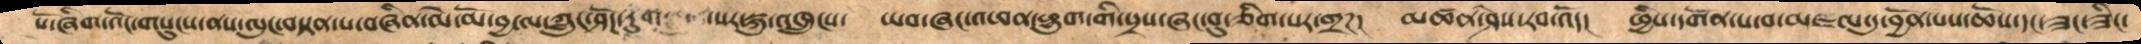པོ་ཞིག་འོང་གསུངས་ནས་་ལུང་བསྟན་པ་བཞིན་མེ་མོ་བྱ་ལ་ཀླུངས་ཤོད་རུག་ པར་སྐུ་འཁྲུངས། ཡབ་ཞང་འཕན་ཕྱུག་གི་སྲས་ཞང་བུ་ཅིག་པར་གྲཌ། མཚན་ཤེས་རབ་འོད། ཕྱིས་དགོན་པ་བ་མཇལ་དུ་བྱོན་པས་ཆོས་ད། ཟང་ཟིང་
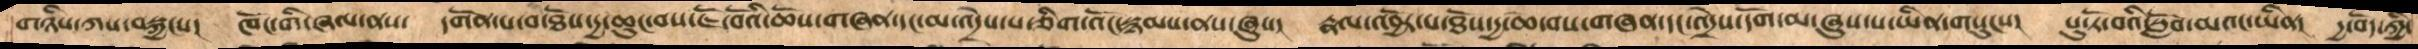གཉིས་ཀས་བསྐྱངས། ཁོང་གི་ཞལ་ནས། དགོན་པ་བ་ཐོས་དྱ་ཆུང་བས་ཇོ་བོའི་ཆོས་གཞན་དང་མ་འདྲེས་པ་ཅིག་འོང་སྙམས་ནས་ཞུས།  རྣལ་འབྱོར་པ་ཐོས་དྱ་ཆེ་བས་གཞན་དང་འདྲེས་དོག་མ་ཞུས་པ་ཡིན་གསུངས།  པུ་ཏོ་བའི་སློབ་མའང་ཡིན། དྱ་བོད་ཀྱི་
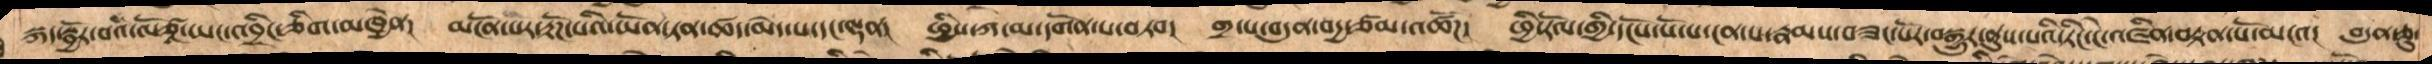སྐད་སྦྱོར་བའི་ལོཙཱ་ཡང་འབྲིང་ཅིག་མཁྱེན།  མངོན་པར་རྟོཌ་པའི་ཡོན་ཏན་ཚད་མེད་པ་དང་ལྡན།  ཕྱིས་ཀ་མ་དགོན་པ་བཏབ། གྲ་པ་བདུན་བདྱ་ཙམ་འཚོཌ།  ཕྱི་རོལ་གྱི་དངོས་པོ་པ་ངན་པ་རྣམས་བཟང་པོར་བསྒྱུར་ནུས་པའི་ཏིང་ངེ་འཛིན་བརྟན་པོ་མངའ།  བདུན་ཅུ་
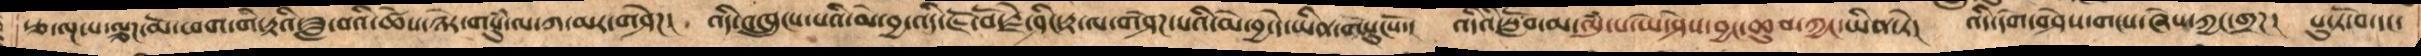རྩ་ལྔ་པ་ལྕཌ་མོ་ཕག་གི་རྟའི་ཟླ་བའི་ཚེས་ཉེར་གསུཾ་ལ་ཀ་མར་གཤེཌ།  འདི་འཁྲུངས་པའི་མེ་བྱ་འདི་ཇོ་བོ་རྗེ་ཤིང་རྟ་ལ་གཤེཌ་པའི་མེ་བྱ་དེ་ཡིན་གསུངསོ་།   འདིའི་སློབ་མ་ལུཾ་པ་ཡེ་ཤེས་བྱང་ཆུབ་ཀྱང་ཡིན་ཏེ།   འདི་དགེ་བཤེས་གངས་ཞེས་ཀྱང་གྲཌ།   པུ་ཏོ་བ་དང་
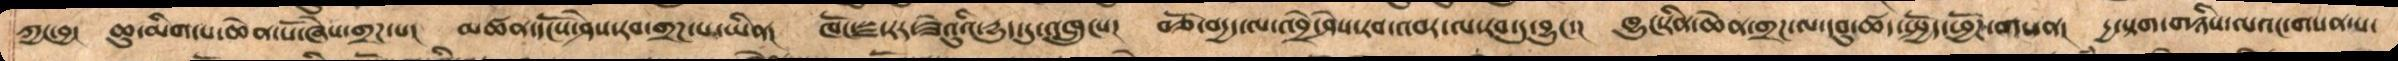ཀྱང་བྱ།   ཆུ་མིག་པ་ཆེན་པོ་ཞེས་གྲཌ་པ།   མཚན་དངོས་ཤེས་རབ་གྲཌ་པ་ཡིན།   ཁོང་སྫ་རར་ཟེའུའི་དྱུད་དུ་འཁྲུངས།   བཅོ་བདྱད་ལ་འབྲེ་ཤེས་རབ་འབར་ལ་རབ་དུ་བྱུང་།   ཁྱུང་རིན་ཆེན་གྲཌ་ལ་དབུ་ཚད་དང་སྤྱོད་ཕྱོཌ་གསན།    དྱ་སྟག་གཉིས་ལའང་གསན་པ།
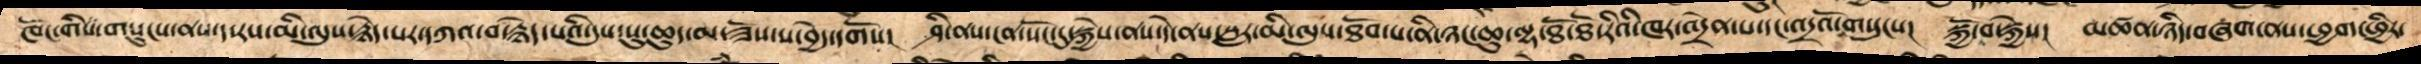ཁོང་གིས་གསུངས་ནས་ད་རས་མི་ལུས་རྙེད་པར་དཀའ་བ་རྙེད་པའི་དུས་སུ་ཆུད་མ་ཟོས་པ་བྱེད་དགོས།   ཤི་ནས་ངན་སོང་དུ་སྐྱེས་ནས་དེ་ནས་སླར་མི་ལུས་ཐོབ་པ་ནི་ཉང་ཆུ་ལྷ་ཐོ་ཐོ་རིའི་ཁར་འདྲེན་པ་དང་འདྲའོ་གསུངས།  སྐྱོ་བ་སྐྱེས།  མཚན་ཉིད་བཞག་ནས་ཕྱག་ཕྱིར་
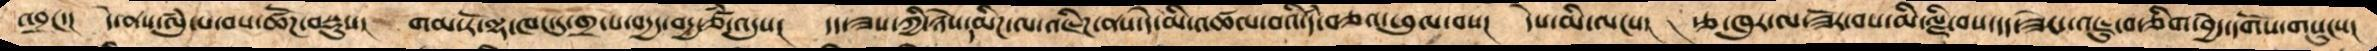འབྲང་།    དེ་ནས་ལུཾ་པ་བས་ཚོཌ་བསྡུས།   གམ་རོ་ལྷ་ཁང་དུ་གྲ་པ་བདྱད་བདྱ་ཙཾ་འདུས།   དད་ཟས་ཀྱི་ཉེས་དམིཌ་ལ་འཇིཌ་ནས་དེ་མི་འཚལ་བའི་དཾ་བཅའ་ཕུལ་བས།  དེས་མི་ལངས་།  རྩ་ཁུར་ལ་ཟོར་བས་མི་ལྕི་བས་དད་ཟེས་འཇུ་བ་ཅིག་བྱེད་དགོས་གསུངས།
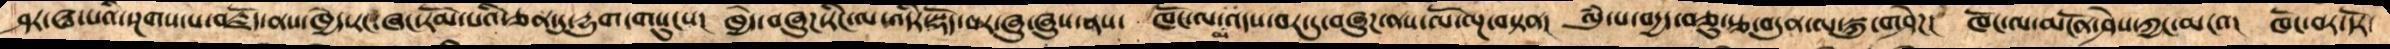ཤར་ཝ་པའི་སྔགས་པ་བརྗོད་ནས་ཁྱེད་རང་ཞང་རོམ་པའི་ཅན་དུ་དྱུག་གསུངས།  ཁྱེད་བཞུཌ་རིང་ལ་འདིར་སྡོད་པར་ཞུ་ཞུས་ནས་  ཁོང་ལ་མ་འདས་བར་དུ་རང་བཞུཌ་ནས་ལོ་ལྔ་བསྟན།  ལུཾ་པ་བདྱད་བཅུ་རྩ་བདུན་ལ་སྐུ་གཤེཌ།  ཁོང་ལ་མངོན་ཤེས་ཀྱང་མངའ།  ཁོང་བར་དོར་
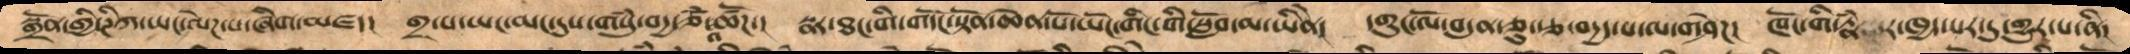སྒྲོན་གྱི་ཌིཀ་ཡང་ལེཌ་པ་ཞིག་མཛད།  གྲ་པ་ཡང་མང་དུས་གསུཾ་བདྱ་ཅཾ་འཚོཌ་།  རྣར་ཐང་གི་གདོང་སྟོན་ཆེན་པོ་ཡོང་གིང་གི་སློབ་མ་ཡིེན།  དགུང་ལོ་བདུན་ཅུ་རྩ་བདྱད་པ་ལ་གཤེཌ།  ཁོང་གི་རྣཾ ར་ཁྱད་པར་དུ་གྱུར་པ་ནི།
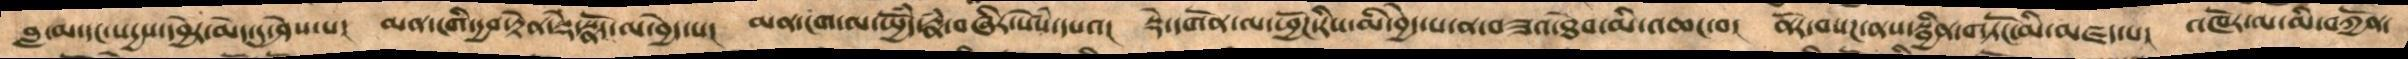བླ་མ་དང་སདྱས་དབྱེར་མེད་དུ་ཤེས་པ།    མན་ངགི་དྱབ་རྟེན་སྡེ་སྣོད་ལ་བྱེད་པ།   མན་ངག་ལ་སྤྱོདཾ་རྣཾ་བཞིར་སེཾས་དཔའ།    སྡེ་དགོན་ལ་ཕྱོཌ་རིས་མི་བྱེད་པ་ན་བཟའ་ཐེབ་མི་འཆང་བ།   ནོར་བསཌ་ནས་སྦྱིན་གཏོང་མི་མཛད་པ།   འཁོར་ལ་མི་བཀྱོན་
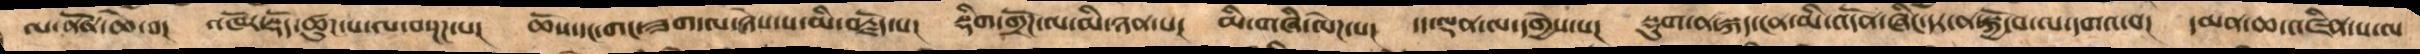ལ་ནོན་ཆེ་བ།   འཁོར་སྡོད་ཚུཌ་པ་ལ་བསྔཌ་པ།   ཆོས་དང་གང་ཟག་ལ་ཉེས་པ་མི་བརྗོད་པ།   སྡིག་གྲོཌ་ལ་མི་ཉན་པ།   མི་གཞི་ལེཌ་པ།   དད་ལྡན་ལ་དགྱེས་པ།   སྡུག་ན་སྐད་ངན་མི་འདོན་ཞིང་དར་ན་སྐྱོ་བ་ལ་དགའ་བ།  དམན་ཆ་འཛིན་པ་ལ
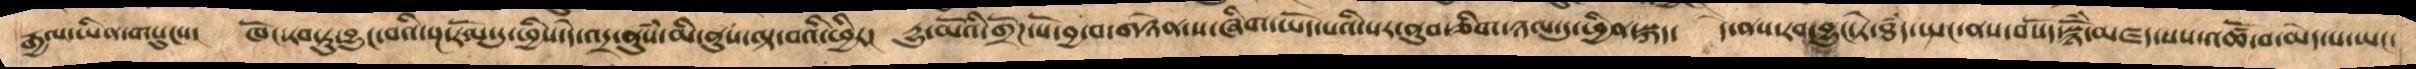རྒྱལ་ཡིན་གསུངས།   ཁོང་རབ་ཏུ་བྱུང་བའི་སྔ་རོལ་དུ་ཕྱིས་དེ་འདྲ་ནུསཾ་མི་ནུས་ལྟ་བའི་ཕྱིར།   དྱུ་མོའི་གྲོཌ་པོ་བྱ་བ་གཉེན་ས་ཞིག་ཡོད་པའི་སར་ནུབ་ཅིག་ཉལ་དུ་ཕྱིན་སྐད།   དེ་ནས་རབ་བྱུང་ཏེ་ཐཾད་སྤང་ནས་བསོད་སྙོཾ་མཛད་པས་འཚོ་བ་མེད་པ་ཡང་
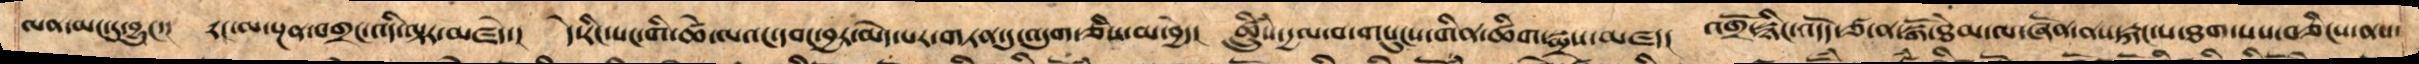ལན་མང་དུ་བྱུང་།  རང་ལ་སྔན་བགྲང་འདི་ལྟར་མཛདེ་།  དེ་རིང་སང་གི་ཚེ་ལའང་དབང་བྱར་མེད་པར་གཏན་དུ་འདུག་ཅིས་མ་བྱེད་།  ཚྲིུཾས་དྱལ་བ་གསུངས་གིན་ཚིག་སྨྲས་མཛད།   འགྲོ་སྙིང་འདོད་ཙ་ན་སྒོ་ཐེམ་ལ་ཞོན་ནས་རྐང་པ་ཐག་པས་བཅིངས་ནས་
